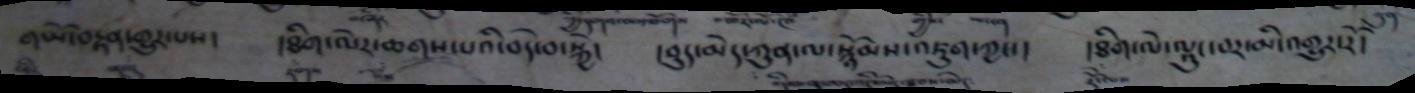གཡོ་བརྟན་གྱུར་པས།   །ཐིག་ལེར་ཆགས་པའི་བདེ་བ་སྐྱེ།   །བུད་མེད་ཀུན་ལ་སྙོམས་འཇུག་ཀྱང་།    །ཐིག་ལེ་ལྟང་བར་མི་འགྱུར་རོ།
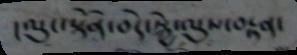།ལུང་སྟོན་བདེ་སྐྱེ་ལུས་བརྟན་
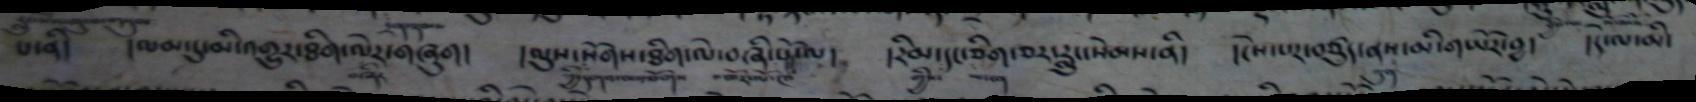པ་ནི།   །ལམ་དུ་མི་འགྱུར་ཐིག་ལེར་གཞུག།   །ལུས་སོགས་ཐིག་ལེ་བཞི་སྤོལ།    །རིམ་དང་ཅིག་ཅར་རླུང་སེམས་ནི།   །ངེས་པར་བཙུད་ནས་མི་གཡོར་བྱ།   །དེ་ལ་མི་
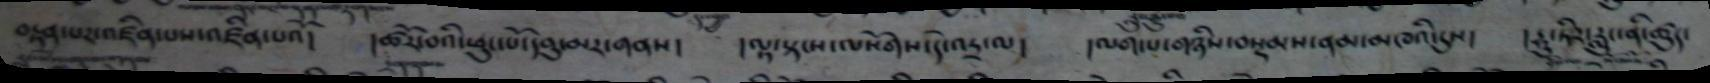བསྟན་པར་འཛིན་པ་འཛིན་པའོ།   །ཚོར་བའི་ཕུང་པོ་དབུ་མར་གནས།   ། ལྟ་སྟམ་ལསོགས་དེ་འདྲ་ལ།   །ལག་པ་གཉིས་བསྡམས་ནམ་མཁའི་དུས།    །རྡུ་ཏིར་རླུང་ནི་ཚུད་
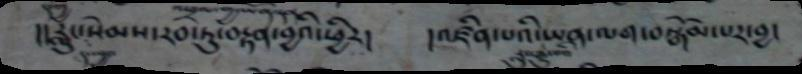།།རླུང་སེམས་རབ་ཏུ་བརྟན་བྱའི་ཕྱིར།     །འཛིན་པའི་ཡན་ལག་བསྒོམ་པར་བྱ།
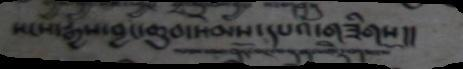སངས་རྒྱས་བྱང་ཆུབ་སེམས་དཔའ་གཟིགས།།
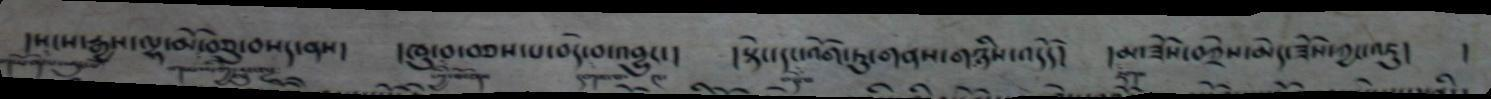།སངས་རྒྱས་ལྷ་མོ་བཅུ་བསད་ནས།   ། ཁུ་བ་བཅས་པ་བདེ་བ་འགྱུང་།   །སྟེང་དང་འོག་ཏུ་གནས་གཉིས་འདོད།    དམ་ཟོས་བཀྲིས་མེད་ཟོས་
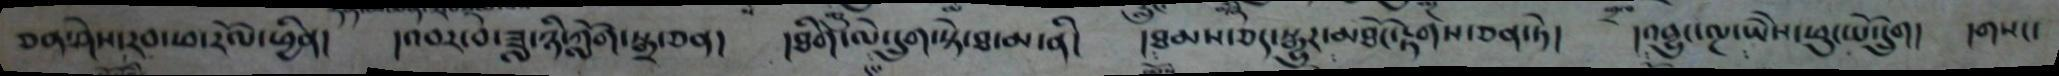ཅན་ཤེས་རབ་ཕ་རོལ་ཕྱིན།   །འབར་བ་ཟླ་ཉི་ཀློག་སྒྲ་ཅན།  །ཐིག་ལེ་དྲུག་སྟེ་ཐ་མ་ནི།  །ཐམས་ཅད་སྒྱུར་མཐོང་རྟགས་ཅན་ཏེ།   །འབྱུང་ལྔ་ཡེེས་ཕུང་པོ་དྲུག།   །གསང་
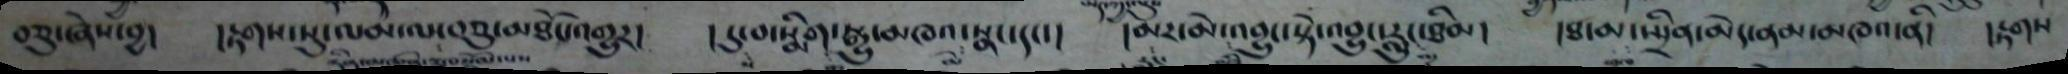བཅུ་ཞེས་བྱ།    །རྟགས་སུ་ལམ་ལ་བཅུ་མཐོང་འགྱུར།  །དུ་བ་སྨིག་སྒྱུ་མཁའ་སྣང་དང་།   །མར་མེ་འབྱུང་སྟེ་འབྱུང་རླུང་ཐིམ།   །ཐ་མ་སྤྲིན་མེད་ནམ་མཁའ་ནི།  །རྟགས
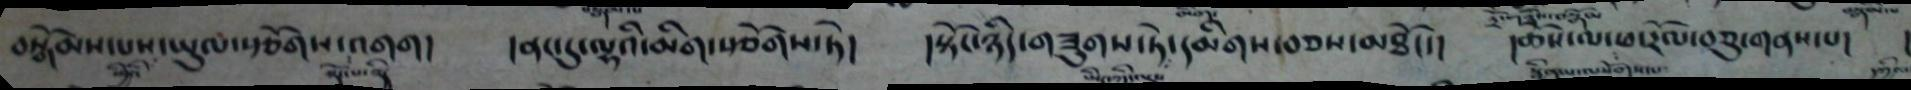བསྒོམས་པས་ཡུལ་སྩོགས་འགག།     །ནང་དུ་ལྷའི་མིག་སྩོགས་ཏེ།   །སྟོང་ཉིད་གཟུགས་ཏེ་དམིགས་བཅས་མཐོང་།   །ཆོས་ལ་ཕ་རོལ་བཅུ་གནས་པ།   །
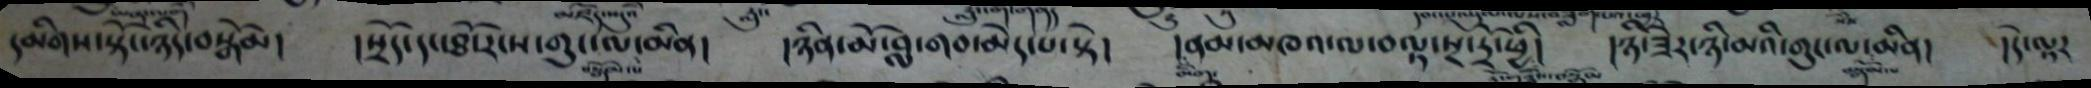དམིགས་སྟོང་ཉིད་བསྒོམ།    །སྲོད་དང་ཐོ་རངས་གུང་ལ་མིན།  །ཉིན་མི་བླ་གབ་མེད་པ་སྟེ།   །ནམ་མཁའ་ལ་བལྟ་སྔ་དྲོ་ཕྱི།    །ཉི་ཟེར་ཉི་མའི་གུང་ལ་མིན།  །དེ་ལྟར
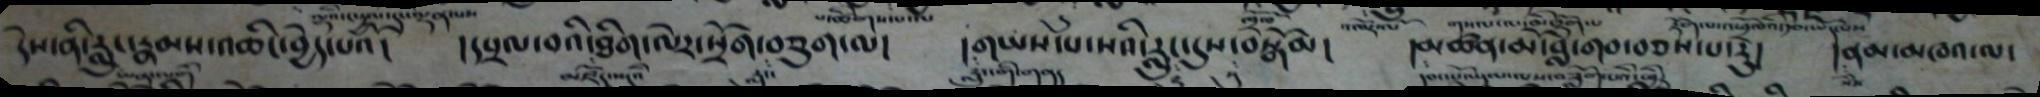དེས་ནི་རླུང་རྣམས་འཆིང་བྱེད་པའོ།   །དཔྲལ་བའི་ཐིག་ལེར་སྲོག་བཅུག་ལ།   །གཡས་པ་སའི་རླུང་དུས་བསྒོམ།    །མཚན་མ་བློ་གབ་བཅས་པ་རུ།  །ནམ་མཁའ་ལ་
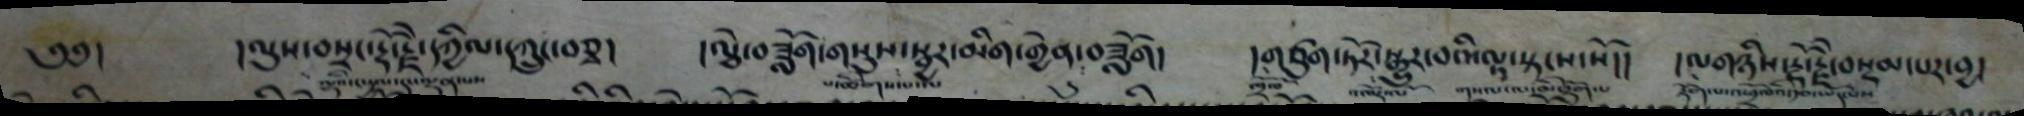༄༅།    །ལུས་བསྲང་རྡོ་རྗེ་དཀྱིལ་དཀྲུང་བཅྭ།    །ལྕེ་བཟློག་གསུས་སྦྱར་མིག་གྱེན་བཟློག།  །གཙུག་ཏོར་སྒྱུར་བའི་ལྟ་སྟངས་སོ།།  །ལགཉིས་རྡོ་རྗེ་བསྡམ་པར་བྱ།
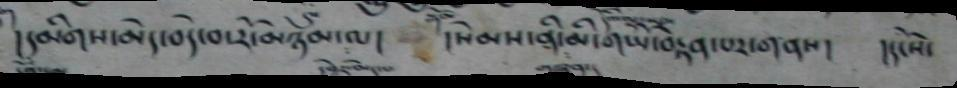། དམིགས་མེད་བདེ་བ་རོ་མཉམ་ལ།   །སེམས་ནི་མི་གཡོ་བརྟེན་པར་གནས།   །དངོས་
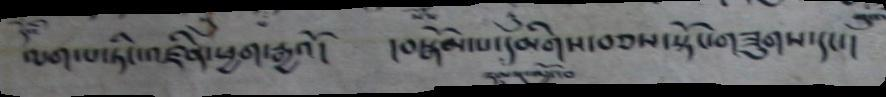ལག་པ་ཏིང་འཛིན་ཕྱག་རྒྱའོ།   །བསྒོམ་པ་དམིགས་བཅས་སྟོང་གཟུགས་དང་།
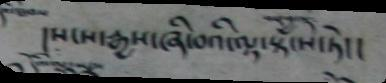།སངས་རྒྱས་ཞི་བའི་ལྟ་སྟངས་ཏེ།།
